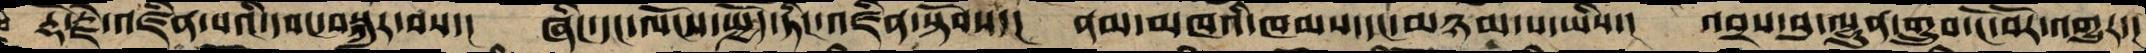རྡོ་རྗེ་འཛིན་པའི་དབང་བསྐུར་བས་།  ཞིང་དང་ལོངས་སྤྱོད་ཏིང་འཛིན་སྟོབས་།  ནམ་མཁའི་ཁམས་དང་མཉམ་པ་ཡིས་།  འབྲས་བུ་ལྷུན་གྲུབ་ངོ་བོར་འགྱུར་།
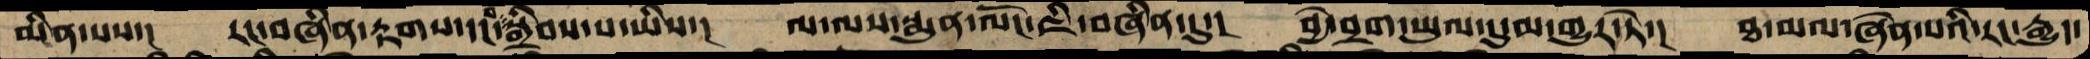མིན་པས་།  རང་བཞིན་རྟགས་དང་བསྒྲིབས་པ་ཡིས་།  ལ་ལས་སྨུན་ལོང་ཇི་བཞིན་དུ་།  བྱེ་བྲག་ཡུལ་དུ་མ་གྱུར་ཏེ་།  ཐ་མལ་ཞེན་པའི་རང་རྒྱུད་
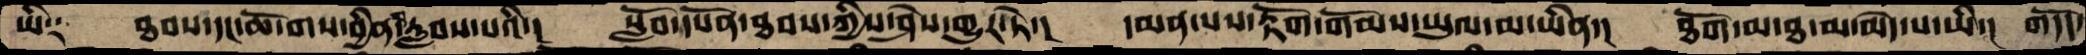ཡི༑  ཐབས་དང་ཆོ་གས་བྱིན་བརླབས་པའི་།  སློབ་དཔོན་ཐབས་ཀྱིས་ཤེས་གྱུར་ཏེ་།  དམན་པས་རྟོག་གོམས་ཡུལ་མ་ཡིན་།  ཐོག་མ་ཐ་མ་མེད་པ་ཡི་།  གདོད་
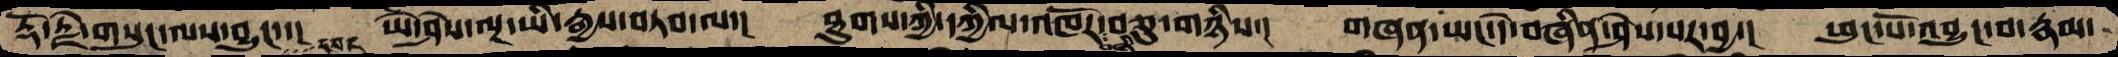རྡོ་རྗེ་གསུང་ལས་བྱུང་་།  ཡེ་ཤེས་ལྔ་ཡི་རྒྱས་བཏབ་ལ་།  ཐུགས་ཀྱི་དཀྱིལ་འཁོར་བཞི་བཅུ་གཉིས་།  གཞན་ཡང་དེ་བཞིན་ཤེས་པར་བྱ་།  ཕུང་པོ་འབྱུང་བ་རྣམ་
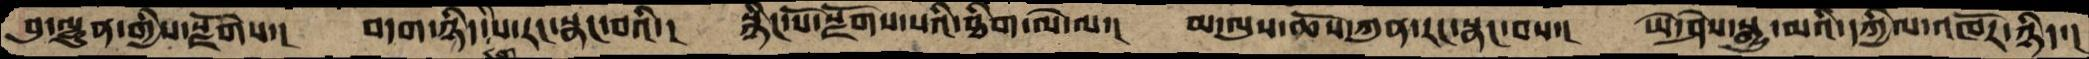བུ་ལྷུན་གྱིས་སྫོགས་།  བདག་ཉིད་རིག་པ་རང་སྣང་བའི་།  སྙིང་པོ་སྫོགས་པའི་ཐིག་ལེ་ལ་།  མ་ལུས་ཆོས་ཀུན་རང་སྣང་བས་།  ཡེ་ཤེས་སྒྱུ་མའི་དཀྱིལ་འཁོར་ཉིད་།
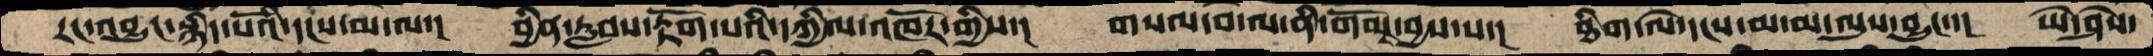རང་བྱུང་སྙིང་པོའི་དངས་མ་ལ་།  བྱིན་རླབས་རྟོག་པའི་དཀྱིལ་འཁོར་གྱིས་།  གསལ་བ་ལ་ནི་གོམས་བྱས་པ་།  ཐིག་ལེ་དངས་མ་མ་ལུས་བྱུང་་།  ཡེ་ཤེས་
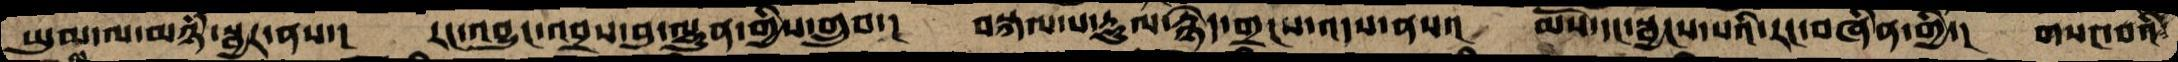ཡུམ་ལ་མཉཾ་སྦྱར་ནས་།  རང་འབྱུང་འབྲས་བུ་ལྷུན་གྱིས་གྲུབ་།  བསྐལ་པ་རྡུལ་རྙེད་གྲངས་འདས་ནས་།  མོས་དང་སྦྱངས་པའི་རང་བཞིན་གྱི་།  གསང་བའི་
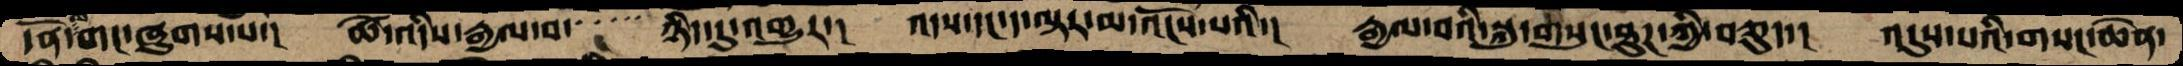དོན་ལ་གང་ཞུགས་པ་། ཚེ་འདིས་རྒྱལ་བ་་་་་ཉིད་དུ་འགྱུར་། འདས་དང་ད་ལྟར་མ་འོངས་པའི་། རྒྱལ་བའི་སྐུ་གསུང་ཐུཌ་ཀྱི་བཅུད་། འདུས་པའི་གསང་ཆེན་
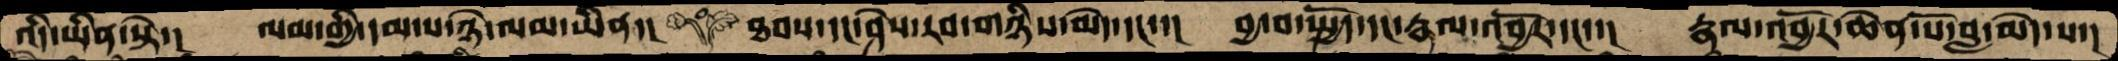འདི་ཡིན་སྟེ་། ལམ་གྱི་དམ་པ་ཉེ་ལམ་ཡིན་། ཐབས་དང་ཤེས་རབ་གཉིས་མེད་དང་་། བྱ་བ་སྤྱོད་དང་རྣལ་འབྱོར་དང་་། རྣལ་འབྱོར་ཆེན་པོ་བླ་མེད་པ་།
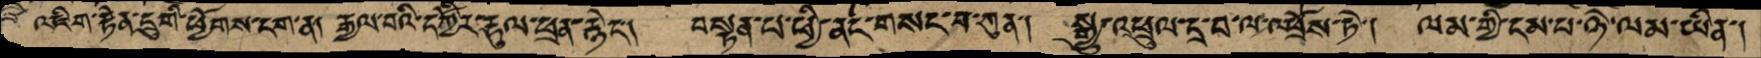འཇིག་རྟེན་དྲུགི་ཕྱོགས་ངག་ན། རྒྱལ་བའི་དཀྱིརོ་རྡུལ་ཕྲན་རྙེང་། བསྟན་པ་ཕྱི་ནང་གསང་བ་ཀུན་། སྒྱུ་འཕྲུལ་དྲ་བ་ལ་འཕྲོས་ཏེ་། ལམ་གྱི་དམ་པ་ཉེ་ལམ་ཡིན་།
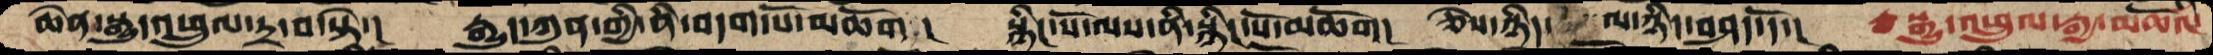ཆེན་སྒྱུ་འཕྲུལ་དྲ་བ་སྟེ་། རྒྱུད་ཀུན་གྱི་ནི་བདག་པོ་མཆོག། སྙིང་པོ་ལས་ནི་སྙིང་པོ་མཆོག། ཅེས་ཉིད་ལ་ཉིད་བཤད་དོ་། སྒྱུ་འཕྲུལ་རྒྱ་མཚོའི་
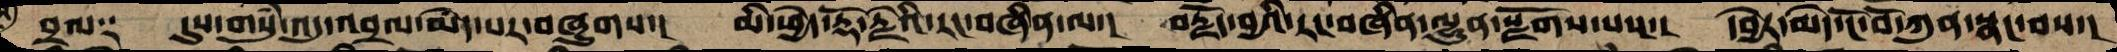བྲལ༑ དུས་གསུཾ་འདུ་བྲལ་མེད་པར་བཞུགས་། མི་ཕྱེད་རྡོ་རྗེའི་རང་བཞིན་ལ་། བརྗོད་བྱའི་རང་བཞིན་ལྷུན་སྫོགས་པས་། དབྱེར་མེད་ངོ་བོ་ཀུན་སྣང་བས་།
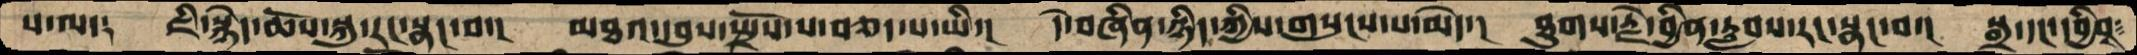ས་ལ་། ཇི་སྙེད་ཆོས་ཀུན་རང་སྣང་བ་། མཐའ་དབུས་སྤྲོས་པ་བཅད་པ་ཡི་། དེ་བཞིན་ཉིད་ཀྱིས་གསུངས་པ་མེད་། ཐུགས་རྗེ་བྱིན་རླབས་རང་སྣང་བ་། སྒྲ་དང་དབྱིབས་
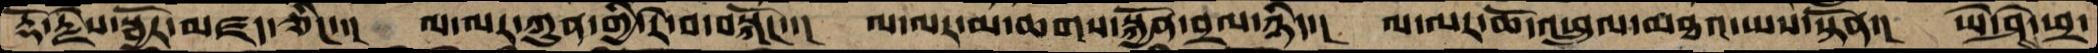རྡོ་རྗེས་སྦྱོར་མཛད་ཅིང་་། ལ་ལར་ཀུན་གྱི་རེ་བ་བསྐོང་་། ལ་ལར་མ་ཆགས་སྐྱོན་བྲལ་ཉིད་། ལ་ལར་ཆོ་འཕྲུལ་མཐའ་ཡས་སྟོན་། ཡེ་ཤེས་ཕྲ་
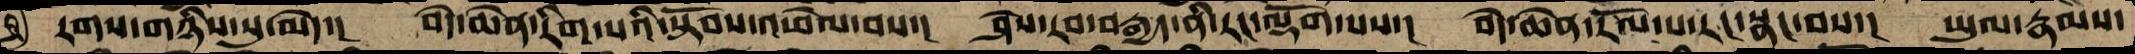རགས་གཉིས་སུ་མེད་། བདེ་ཆེན་རིགས་པའི་སྟོབས་འཕེལ་བས་། ཤེས་རབ་བརྒྱད་ནི་རང་ལྡོག་པས་། བདེ་ཆེན་རོལ་པ་རང་སྣང་བས་། ཡུལ་རྣམས་
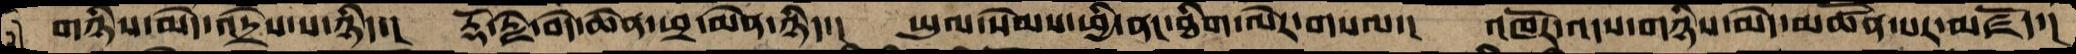གཉིས་མེད་འདྲེས་པ་ཉིད་། རྡོ་རྗེ་བདེ་ཆེན་ཕྲ་མེན་ཉིད་། ཡུལ་སེམས་ཕྱི་ནང་ཐིག་ལེར་གསལ་། འཁོར་འདས་གཉིད་མེད་མཚོན་པར་མཛོད་།
